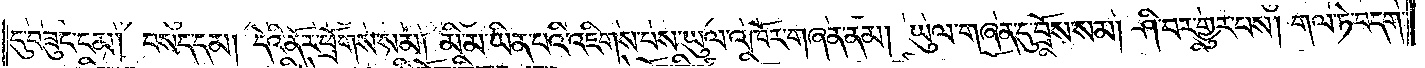དུ་བཟུང་ངམ། བསད་དམ། དེའི་ནོར་ཕྲོགས་སམ། མི་མ་ཡིན་པའི་འཇིགས་པས་ཡུལ་འཁོར་གཞན་ནམ། ཡུལ་གཞན་དུ་བྲོས་སམ། ཤི་བར་གྱུར་བས། གལ་ཏེ་བདག་
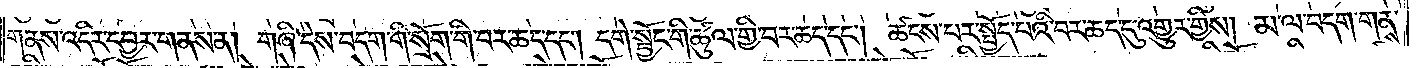གནས་འདིར་དབྱར་གནས་ན། གཞི་དེས་བདག་གི་སྲོག་གི་བར་ཆད་དང༌། དགེ་སྦྱོང་གི་ཚུལ་གྱི་བར་ཆད་དང༌། ཚངས་པར་སྤྱོད་པའི་བར་ཆད་དུ་འགྱུར་གྱིས། མ་ལ་བདག་གནས་
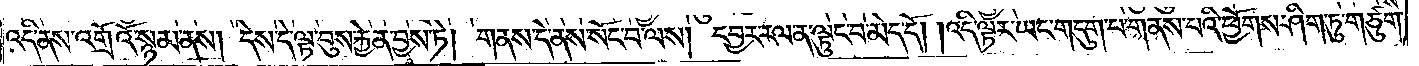འདི་ནས་འགྲོའོ་སྙམ་ནས། དེས་དེ་ལྟ་བུས་རྐྱེན་བྱས་ཏེ། གནས་དེ་ནས་སོང་བ་ལས། དབྱར་རལ་ན་ལྟུང་བ་མེད་དོ། །འདི་ལྟར་ཡང་གདུག་བ་གནས་བའི་ཕྱོགས་ཤིག་ཏུ་གཙུག་
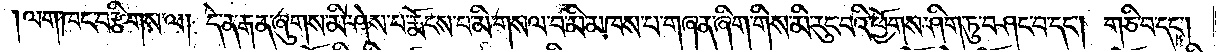ལག་ཁང་བརྩིགས་ལ། དེ་ན་རྒན་ཞུགས་མི་ཤེས་པ་རྨོངས་པ་མི་གསལ་བ་མི་མཁས་པ་གཞན་ཞིག་གིས་མི་རུང་བའི་ཕྱོགས་ཤིག་ཏུ་བཤང་བ་དང༌། གཅི་བ་དང༌།
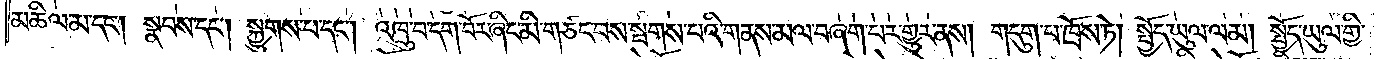མཆིལ་མ་དང༌། སྣབས་དང༌། སྐྱུགས་པ་དང༌། འཁྲུ་བ་དག་བོར་ཞིང་མི་གཙང་བས་སྦགས་པའི་གནས་མལ་བཞག་པར་གྱུར་ནས། གདུག་པ་ཁྲོས་ཏེ། སྤྱོད་ཡུལ་ལམ། སྤྱོད་ཡུལ་གྱི་
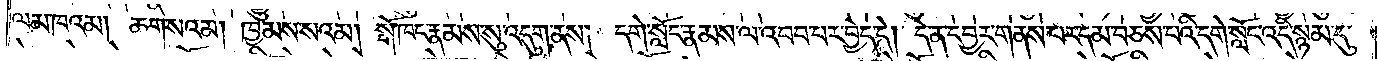ལམ་ཁའམ། ཆག་སའམ། ཁྱམས་སའམ། སྒོ་ཁང་རྣམས་སུ་འདུག་ནས། དགེ་སློང་རྣམས་ལ་འབབ་པར་བྱེད་དེ། དེ་ན་དབྱར་གནས་པར་དམ་བཅས་པའི་དགེ་སློང་འདི་སྙམ་དུ་
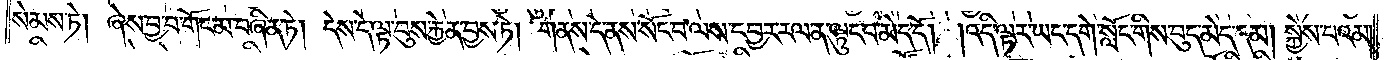སེམས་ཏེ། ཞེས་བྱ་བ་གོང་མ་བཞིན་ཏེ། དེས་དེ་ལྟ་བུས་རྐྱེན་བྱས་ཏེ། གནས་དེ་ནས་སོང་བ་ལས་དབྱར་རལ་ན་ལྟུང་བ་མེད་དོ། །འདི་ལྟར་ཡང་དགེ་སློང་གིས་བུད་མེད་དམ། སྐྱེས་པའམ་
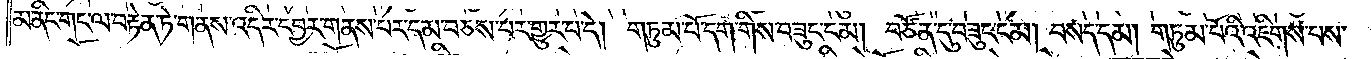མ་ནིང་གང་ལ་བརྟེན་ཏེ་གནས་འདིར་དབྱར་གནས་པར་དམ་བཅས་པར་གྱུར་པ་དེ། གཏུམ་པོ་དག་གིས་བཟུང་ངམ། བཙོན་དུ་བཟུང་ངམ། བསད་དམ། གཏུམ་པོའི་འཇིགས་པས་
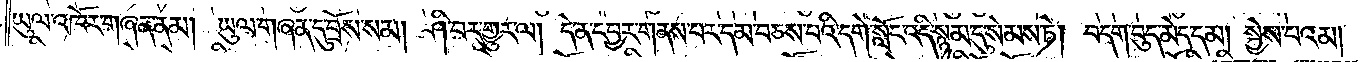ཡུལ་འཁོར་གཞན་ནམ། ཡུལ་གཞན་དུ་བྲོས་སམ། ཤི་བར་གྱུར་ལ། དེ་ན་དབྱར་གནས་པར་དམ་བཅས་པའི་དགེ་སློང་འདི་སྙམ་དུ་སེམས་ཏེ། བདག་བུད་མེད་དམ། སྐྱེས་པའམ།
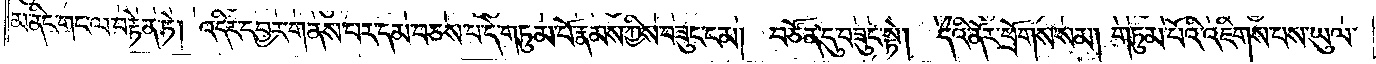མ་ནིང་གང་ལ་བརྟེན་ཏེ། འདིར་དབྱར་གནས་པར་དམ་བཅས་པ་དེ་གཏུམ་པོ་རྣམས་ཀྱིས་བཟུང་ངམ། བཙོན་དུ་བཟུང་སྟེ།  དེའི་ནོར་ཕྲོགས་སམ། གཏུམ་པོའི་འཇིགས་པས་ཡུལ་
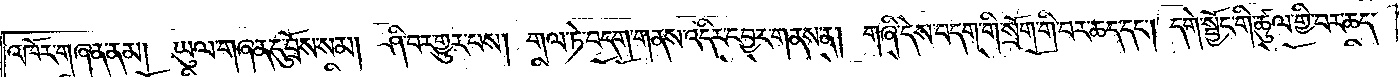འཁོར་གཞན་ནམ། ཡུལ་གཞན་དུ་བྲོས་སམ། ཤི་བར་གྱུར་པས། གལ་ཏེ་བདག་གནས་འདིར་དབྱར་གནས་ན། གཞི་དེས་བདག་གི་སྲོག་གི་བར་ཆད་དང༌། དགེ་སྦྱོང་གི་ཚུལ་གྱི་བར་ཆད་
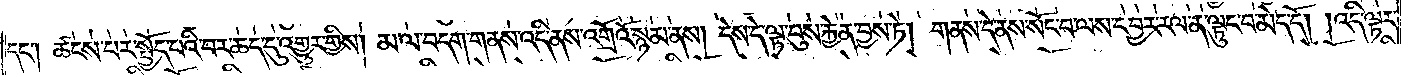དང༌། ཚངས་པར་སྤྱོད་པའི་བར་ཆད་དུ་འགྱུར་གྱིས། མ་ལ་བདག་གནས་འདི་ནས་འགྲོའོ་སྙམ་ནས། དེས་དེ་ལྟ་བུས་རྐྱེན་བྱས་ཏེ། གནས་དེ་ནས་སོང་བ་ལས་དབྱར་རལ་ན་ལྟུང་བ་མེད་དོ། །འདི་ལྟར་
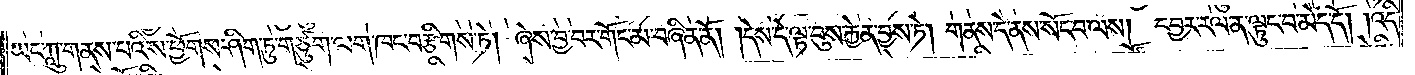ཡང་ཀླུ་གནས་པའི་ས་ཕྱོགས་ཤིག་ཏུ་གཙུག་ལག་ཁང་བརྩིགས་ཏེ། ཞེས་བྱ་བར་གོང་མ་བཞིན་ནོ། །དེས་དེ་ལྟ་བུས་རྐྱེན་བྱས་ཏེ། གནས་དེ་ནས་སོང་བ་ལས། དབྱར་རལ་ན་ལྟུང་བ་མེད་དོ། །འདི་
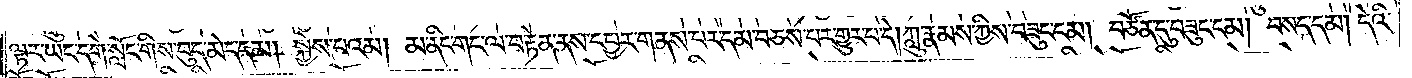ལྟར་ཡང་དགེ་སློང་གིས་བུད་མེད་དམ། སྐྱེས་པའམ། མ་ནིང་གང་ལ་བརྟེན་ནས་དབྱར་གནས་པར་དམ་བཅས་པར་གྱུར་པ་དེ། ཀླུ་རྣམས་ཀྱིས་བཟུང་ངམ། བཙོན་དུ་བཟུང་ངམ། བསད་དམ། དེའི་
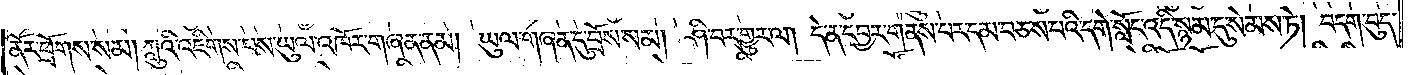ནོར་ཕྲོགས་སམ། ཀླུའི་འཇིགས་པས་ཡུལ་འཁོར་གཞན་ནམ། ཡུལ་གཞན་དུ་བྲོས་སམ། ཤི་བར་གྱུར་ལ། དེ་ན་དབྱར་གནས་པར་དམ་བཅས་པའི་དགེ་སློང་འདི་སྙམ་དུ་སེམས་ཏེ། བདག་བུད་
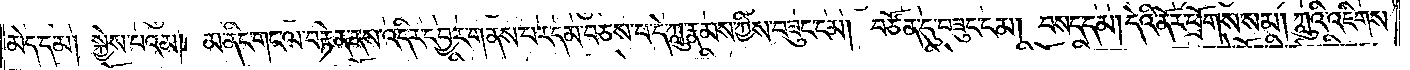མེད་དམ། སྐྱེས་པའམ། མ་ནིང་གང་ལ་བརྟེན་ནས་འདིར་དབྱར་གནས་པར་དམ་བཅས་པ་དེ་ཀླུ་རྣམས་ཀྱིས་བཟུང་ངམ། བཙོན་དུ་བཟུང་ངམ། བསད་དམ། དེའི་ནོར་ཕྲོགས་སམ། ཀླུའི་འཇིགས་
